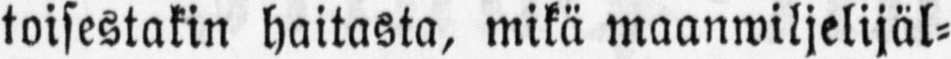toisestakin haitasta, mikä maanwiljelijäl-
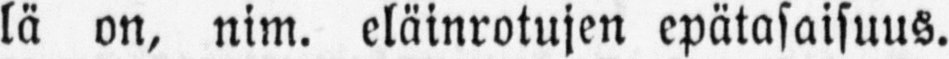lä on, nim. eläinrotujen epätasaisuus.
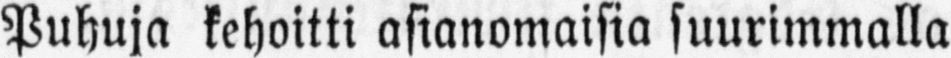Puhuja kehoitti asianomaisia suurimmalla
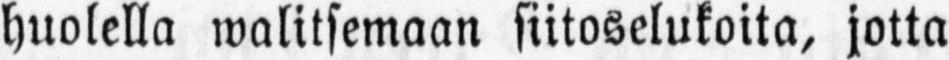huolella walitsemaan siitoselukoita, jotta
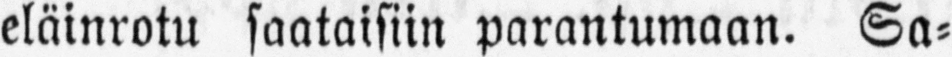eläinrotu saataisiin parantumaan. Sa-
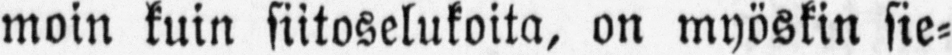moin kuin siitoselukoita, on myöskin sie-
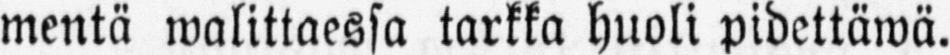mentä walittaessa tarkka huoli pidettäwä.
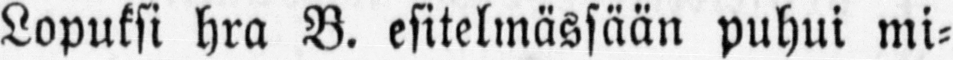Lopuksi hra B. esitelmässään puhui mi-
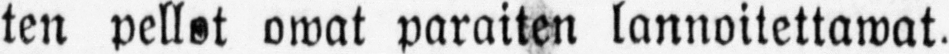ten pellot owat paraiten lannoitettawat.
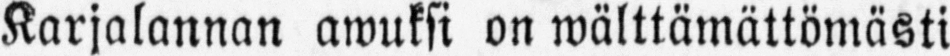Karjalannan awuksi on wälttämättömästi
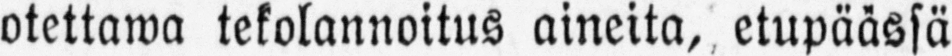otettawa tekolannoitus aineita, etupäässä
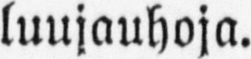luujauhoja.
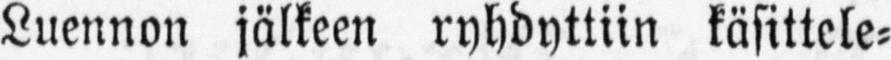Luennon jälkeen ryhdyttiin käsittele-
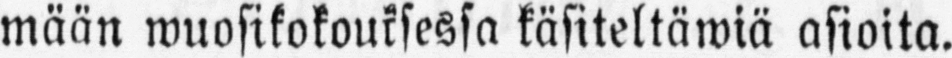mään wuosikokouksessa käsiteltäwiä asioita.
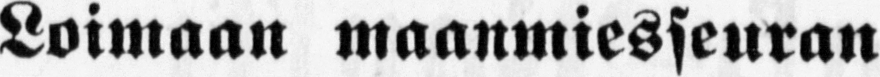Loimaan maanmiesseuran
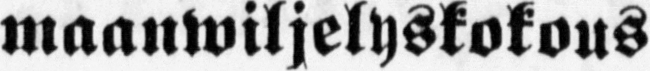maanwiljelyskokous
